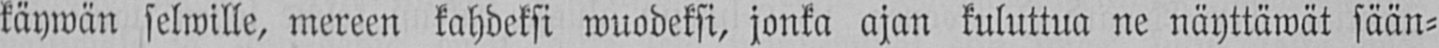käywän selwille, mereen kahdeksi wuodeksi, jonka ajan kuluttua ne näyttäwät sään-
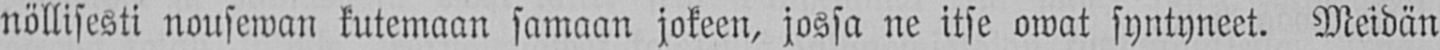nöllisesti nousewan kutemaan samaan jokeen, jossa ne itse owat syntyneet. Meidän
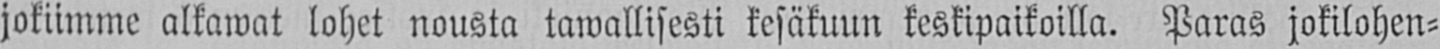jokiimme alkawat lohet nousta tawallisesti kesäkuun keskipaikoilla. Paras jokilohen-
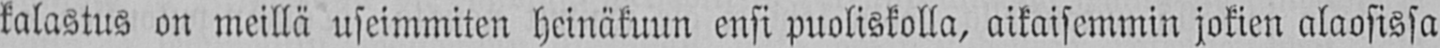kalastus on meillä useimmiten heinäkuun ensi puoliskolla, aikaisemmin jokien alaosissa
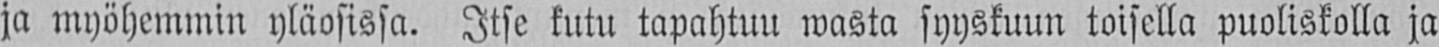ja myöhemmin yläosissa. Itse kutu tapahtuu wasta syyskuun toisella puoliskolla ja
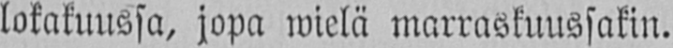lokakuussa, jopa wielä marraskuussakin.
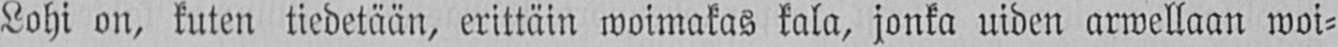Lohi on, kuten tiedetään, erittäin woimakas kala, jonka uiden arwellaan woi-
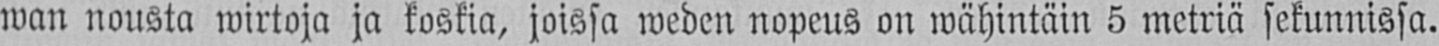wan nousta wirtoja ja koskia, joissa weden nopeus on wähintäin 5 metriä sekunnissa.
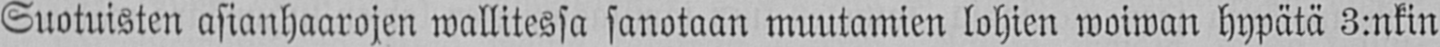Suotuisten asianhaarojen wallitessa sanotaan muutamien lohien woiwan hypätä 3:nkin
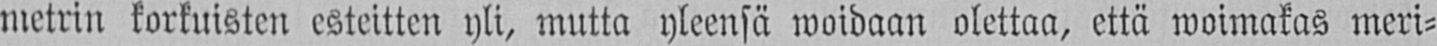metrin korkuisten esteitten yli, mutta yleensä woidaan olettaa, että woimakas meri-
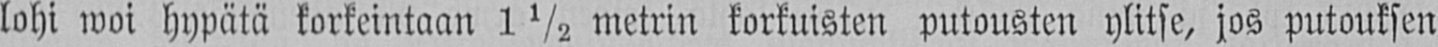lohi woi hypätä korkeintaan 1½ metrin korkuisten putousten ylitse, jos putouksen
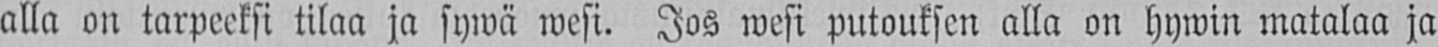alla on tarpeeksi tilaa ja sywä wesi. Jos wesi putouksen alla on hywin matalaa ja
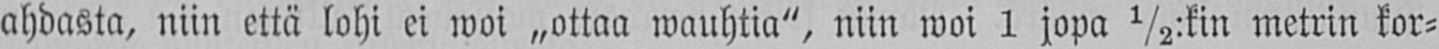ahdasta, niin että lohi ei woi „ottaa wauhtia", niin woi 1 jopa ½:kin metrin kor-
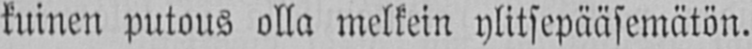kuinen putous olla melkein ylitsepääsemätön.
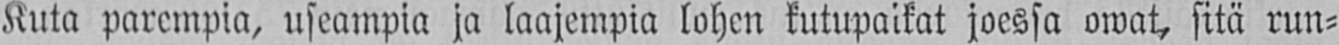Kuta parempia, useampia ja laajempia lohen kutupaikat joessa owat, sitä run-
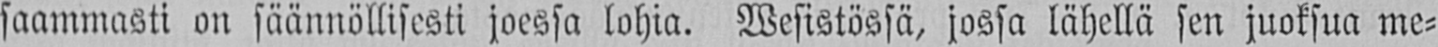saammasti on säännöllisesti joessa lohia. Wesistössä, jossa lähellä sen juoksua me-
